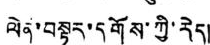ལེན་བསྟར་དགོས་ཀྱི་རེད།
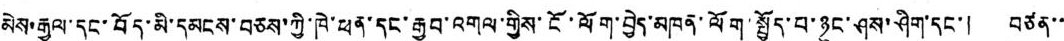མེས་རྒྱལ་དང་བོད་མི་དམངས་བཅས་ཀྱི་ཁེ་ཕན་དང་རྒྱབ་འགལ་གྱིས་ངོ་ལོག་བྱེད་མཁན་ལོག་སྤྱོད་པ་ཉུང་ཤས་ཤིག་དང་། བཙན་་
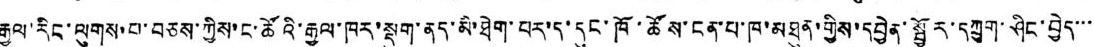རྒྱལ་རིང་ལུགས་བ་བཅས་ཀྱིས་ང་ཚོའི་རྒྱལ་ཁར་སྡུག་ནད་མི་ཐེག་པར་ད་དུང་ཁོ་ཚོས་ངན་པ་ཁ་མཐུན་གྱིས་དབྱེན་སྦྱོར་དཀྲུག་ཤིང་བྱེད་་་
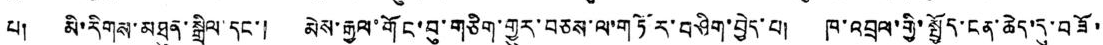པ། མི་རིགས་མཐུན་སྒྲིལ་དང་། མེས་རྒྱལ་གོང་བུ་གཅིག་གྱུར་བཅས་ལ་གཏོར་བཤིག་བྱེད་པ། ཁ་འབྲལ་གྱི་སྤྱོད་ངན་ཆེད་དུ་བཟོ་
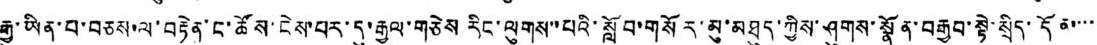རྒྱུ་ཡིན་པ་བཅས་ལ་བརྟེན་ང་ཚོས་ངེས་པར་དུ་རྒྱལ་གཅེས རིང་ལུགས་པའི་སློབ་གསོར་མུ་མཐུད་ཀྱིས་ཤུགས་སྣོན་བརྒྱབ་སྟེ་སྲིད་དོན་་་་་
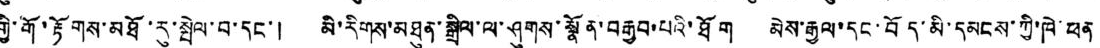གྱི་གོ་རྩོགས་མཐོ་རུ་སྤེལ་བ་དང་། མི་རིགས་མཐུན་སྒྲིལ་ལ་ཤུགས་སྣོན་བརྒྱབ་པའི་ཐོག མེས་རྒྱལ་དང་བོད་མི་དམངས་ཀྱི་ཁེ་ཕན
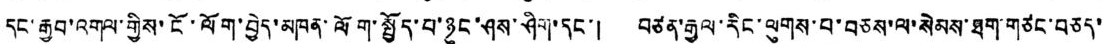དང་རྒྱབ་འགལ་གྱིས་ངོ་ལོག་བྱེད་མཁན་ལོག་སྤྱོད་པ་ཉུང་ཤས་ཤིག་དང་། བཙན་རྒྱལ་རིང་ལུགས་བ་བཅས་ལ་སེམས་ཐག་གཙང་བཅད་
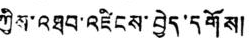ཀྱིས་འཐབ་འཛིངས་བྱེད་དགོས།
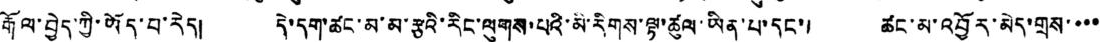རྒོལ་བྱེད་ཀྱི་ཡོད་པ་རེད། དེ་དག་ཚང་མ་མ་རྩའི་རིང་ལུགས་པའི་མི་རིགས་ལྟ་ཚུལ་ཡིན་པ་དང་། ཚང་མ་འབྱོར་མེད་གྲས་་་་
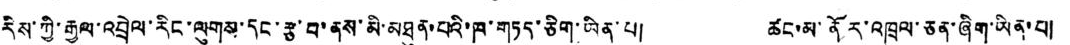རིས་ཀྱི་རྒྱལ་འབྲེལ་རིང་ལུགས་དང་རྩ་བ་ནས་མི་མཐུན་པའི་ཁ་གཏད་ཅིག་ཡིན་པ། ཚང་མ་ནོར་འཁྲུལ་ཅན་ཞིག་ཡིན་པ།
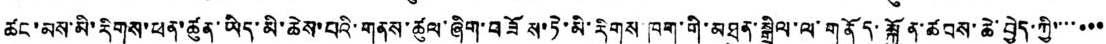ཚང་མས་མི་རིགས་ཕན་ཚུན་ཡིད་མི་ཆེས་པའི་གནས་ཚལ་ཞིག་བཟོས་ཏེ་མི་རིགས་ཁག་གི་མཐུན་སྒྲིལ་ལ་གནོད་སྐྱོན་ཚབས་ཆེ་བྱེད་ཀྱི་་་་་་་
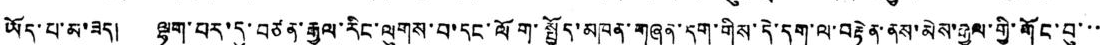ཡོད་པ་མ་ཟད། ལྷག་པར་དུ་བཙན་རྒྱལ་རིང་ལུགས་པ་དང་ལོག་སྤྱོད་མཁན་གཞན་དག་གིས་དེ་དག་ལ་བརྟེན་ནས་མེས་རྒྱལ་གྱི་གོང་བུ་་་
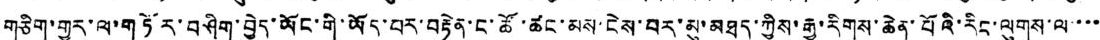གཅིག་གྱུར་ལ་གཏོར་བཤིག་བྱེད་ཡོང་གི་ཡོད་པར་བརྟེན་ང་ཚོ་ཚང་མས་ངེས་པར་མུ་མཐུད་ཀྱིས་རྒྱ་རིགས་ཆེན་པོའི་རིང་ལུགས་ལ་་་་
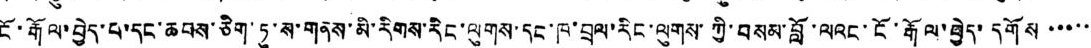ངོ་རྒོལ་བྱེད་པ་དང་ཆབས་ཅིག་ཏུ་ས་གནས་མི་རིགས་རིང་ལུགས་དང་ཁ་བྲལ་རིང་ལུགས་ཀྱི་བསམ་བློ་ལའང་ངོ་རྒོལ་བྱེད་དགོས་་་་་
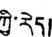ཀྱི་རེད།
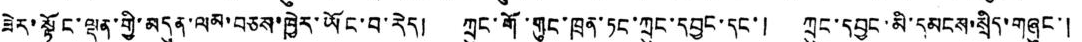ཟེར་སྟོང་ལྡན་གྱི་མདུན་ལམ་བཅས་ཁྱེར་ཡོང་བ་རེད། ཀྲུང་གོ་གུང་ཁྲན་ཏང་ཀྲུང་དབྱང་དང་། ཀྲུང་དབྱང་མི་དམངས་སྲིད་གཞུང་།
